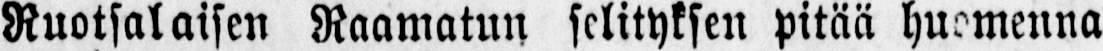Ruotsalaisen Raamatun selityksen pitää huomenna
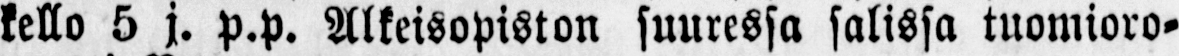kello 5 j. P.P. Alkeisopiston suuressa salissa tuomioro-
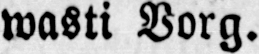wasti Vorg.
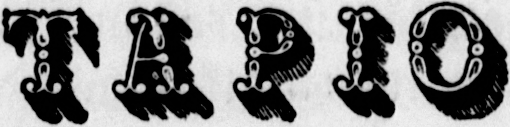TAPIO
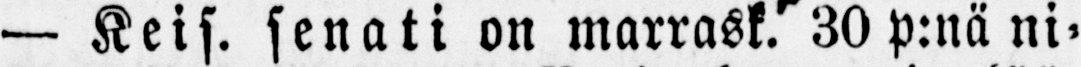— Keis. senati on marrask. 30 p:nä ni-
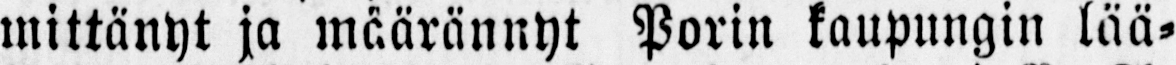mittänyt ja määrännyt Porin kaupungin lää-
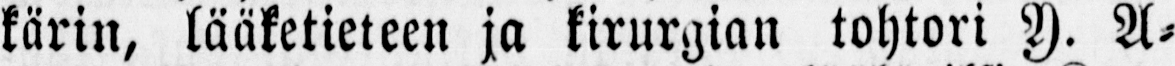kärin, lääketieteen ja kirurgian tohtori Y. A-
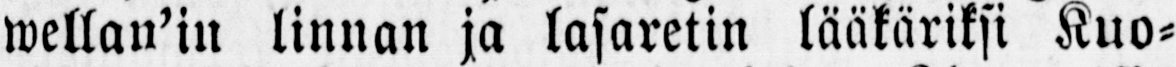wellan’in linnan ja lasaretin lääkäriksi Kuo-
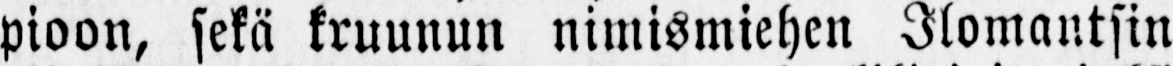pioon, sekä kruunun nimismiehen Ilomantsin
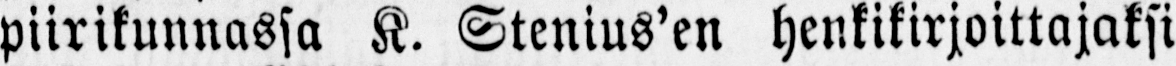piirikunnassa K. Stenius’en henkikirjoittajaksi
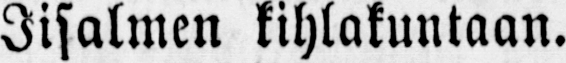Iisalmen kihlakuntaan.
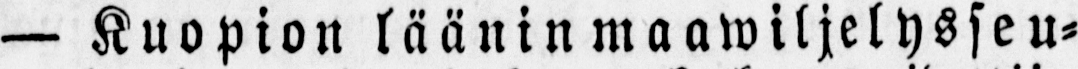— Kuopion läänin maawiljelysseu-
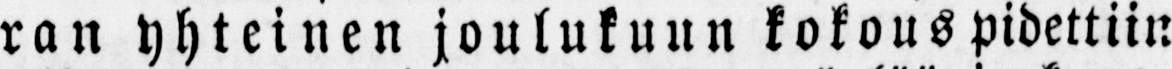ran yhteinen joulukuun kokous pidettiin
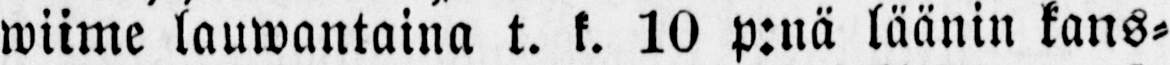wiime lauwantaina t. k. 10 p:nä läänin kans-
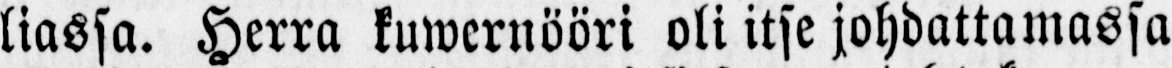liassa. Herra kuwernööri oli itse johdattamassa
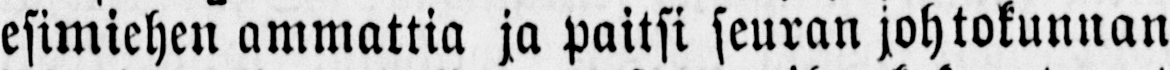esimiehen ammattia ja paitsi seuran johtokunnan
